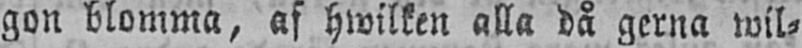gon blomma, af hwilken alla då gerna wil-
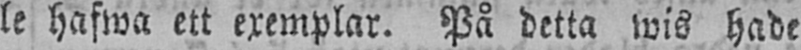le hafwa ett exemplar. På detta wis hade
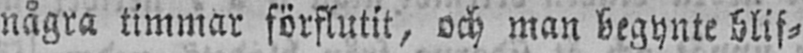några timmar förflutit, och man begynte blif-
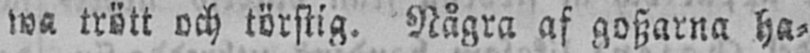wa trött och törstig. Några af goszarna ha-
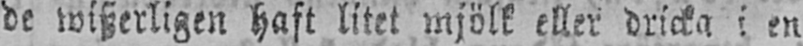de wiszerligen haft litet mjölk eller dricka i en
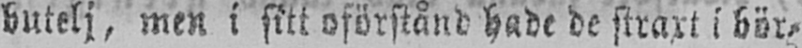butelj, men i sitt oförstånd hade de straxt i bör-
